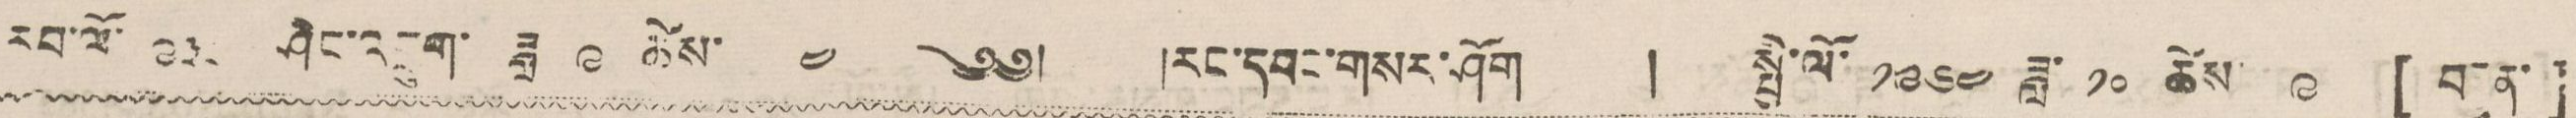རབ་ལོ་ ༩༣༨ ཤིང་འབྲུག་ ཟླ་ ༩ ཚེས ༤ ༄༅། །རང་དབང་གསར་ཤོག །སྤྱི་ལོ་ ༡༩༦༤ ཟླ་ ༡༠ ཚེས་ ༩ [ བདུན་ ]
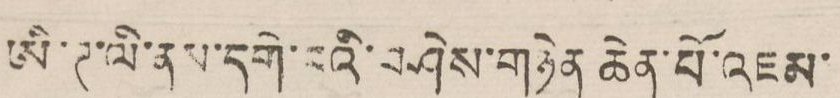ཨི་ཊ་ལི་ནས་དགེ་བའི་བཤེས་གཉེན ཆེན་པོ་འཇམ་
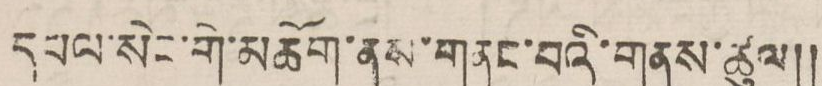དཔལ་སེང་གེ་མཆོག་ནས་གནང་བའི་གནས་ཚུལ།།
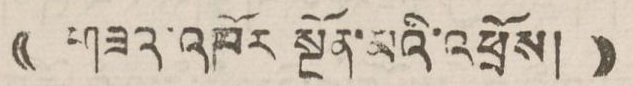(( གཟའ་འཁོར སྔོན་མའི་འཕྲོས། ))
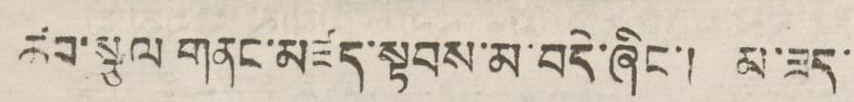ཚབ་ལྩལ གནང་མཛད་སྟབས་མ་བདེ་ཞིང་། མ་ཟད་
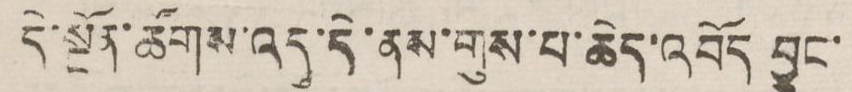དེ་སྔོན་ཚོགས་འདུ་དེ་ནས་གུས་པ་ཆེད་འབོད བྱུང་
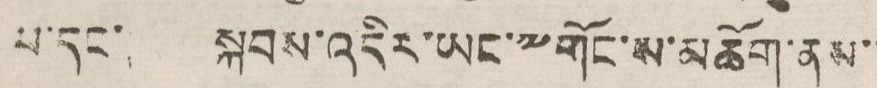པ་དང་། སྐབས་འདིར་ཡང་༸གོང་ས་མཆོག་ནས་་
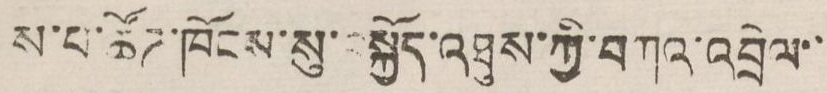ས་པ་ཚོཊ་ཁོངས་སུ་བསྐྱོད་འཐུས་ཀྱི་བཀའ་འབྲེལ་་
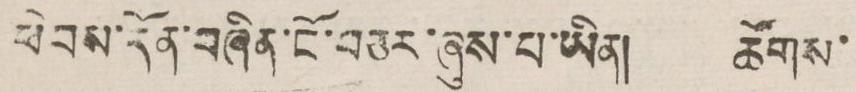ཕེབས་དོན་བཞིན་ངོ་བཅར་ཞུས་པ་ཡིན། ཚོགས་
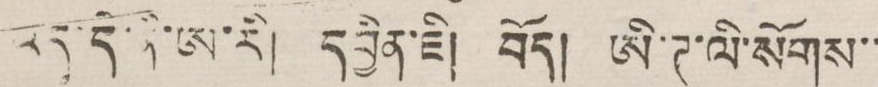འདུ་དེ་ནི་ཨ་རི། དབྱིན་ཇི། བོད། ཨི་ཊ་ལི་སོགས་་
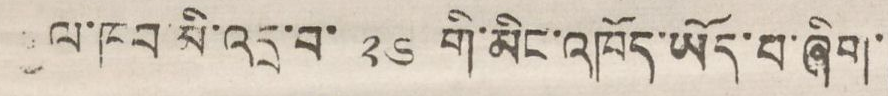རྒྱལ་ཁབ་མི་འདྲ་བ་ ༢༦ གི་མིང་འཁོད་ཡོད་པ་ཞིག་
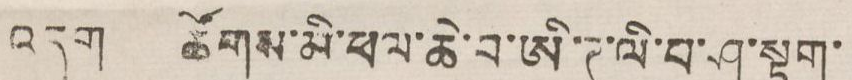འདུག ཚོགས་མི་ཕལ་ཆེ་བ་ཨི་ཊ་ལི་པ་ཤ་སྟག་
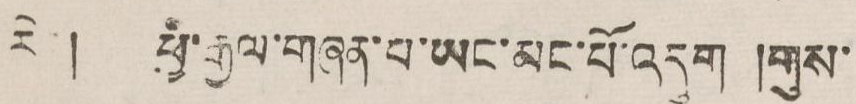རེད། ཕྱི་རྒྱལ་གཞན་པ་ཡང་མང་པོ་འདུག །གུས་
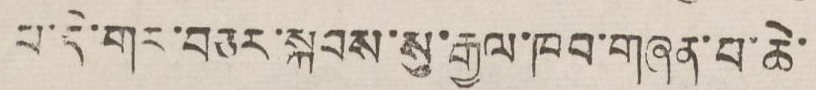པ་དེ་གར་བཅར་སྐབས་སུ་རྒྱལ་ཁབ་གཞན་པ་ཆེ་
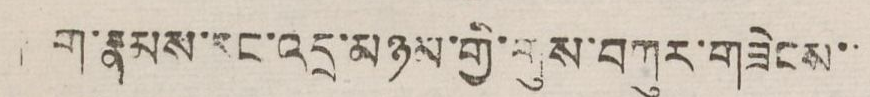ག་རྣམས་དང་འདྲ་མཉམ་གྱི་གུས་བཀུར་གཟེངས་་
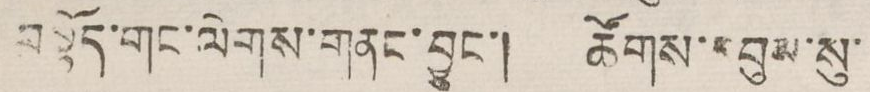བསྟོད་གང་ལེགས་གནང་བྱུང་། ཚོགས་དབུས་སུ་
